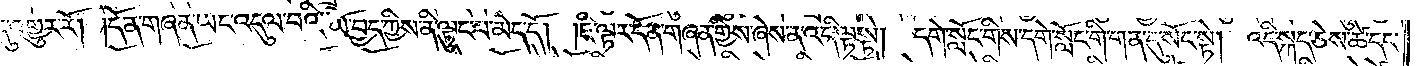དུ་འགྱུར་རོ། །དོན་གཞན་ཡང་འདུལ་བའི་ཡོ་བྱད་ཀྱིས་ནི་ལྟུང་བ་མེད་དོ། །ཇི་ལྟར་དོན་གཞན་གྱིས་ཞེས་ན་འདི་ལྟ་སྟེ། དགེ་སློང་གིས་དགེ་སློང་གི་གན་དུ་སོང་སྟེ། འདི་སྐད་ཅེས་ཚེ་དང་
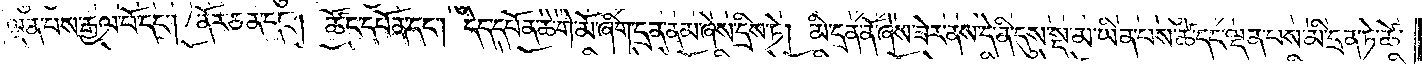ལྡན་པས་རྒྱལ་པོ་དང༌། ནོར་ཅན་དང༌། ཚོང་དཔོན་དང༌། དེད་དཔོན་ཆེ་གེ་མོ་ཞིག་དྲན་ནམ་ཞེས་དྲིས་ཏེ། མི་དྲན་ནོ་ཞེས་ཟེར་ནས་དེ་ནི་དུས་སྔ་མ་ཡིན་པས་ཚེ་དང་ལྡན་པས་མི་དྲན་ཏེ་ཚེ་
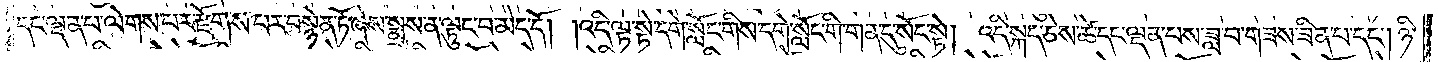དང་ལྡན་པ་ལེགས་པར་རྫོགས་པར་བསྙེན་ཏོ་ཞེས་སྨྲས་ན་ལྟུང་བ་མེད་དོ། །འདི་ལྟ་སྟེ་དགེ་སློང་གིས་དགེ་སློང་གི་གན་དུ་སོང་སྟེ། འདི་སྐད་ཅེས་ཚེ་དང་ལྡན་པས་ཟླ་བ་གཟས་ཟིན་པ་དང༌། ཉི་
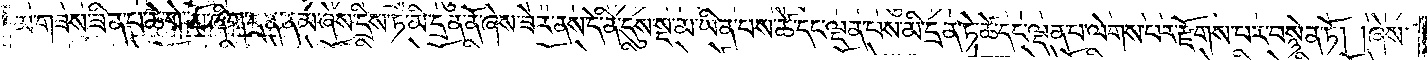མ་གཟས་ཟིན་པ་ཆེ་གེ་མོ་ཞིག་དྲན་ནམ་ཞེས་དྲིས་ཏེ་མི་དྲན་ནོ་ཞེས་ཟེར་ནས་དེ་ནི་དུས་སྔ་མ་ཡིན་པས་ཚེ་དང་ལྡན་པས་མི་དྲན་ཏེ་ཚེ་དང་ལྡན་པ་ལེགས་པར་རྫོགས་པར་བསྙེན་ཏོ། །ཞེས་
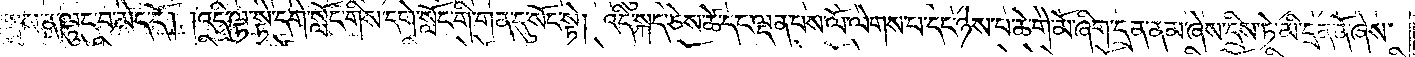སྨྲས་ན་ལྟུང་བ་མེད་དོ། །འདི་ལྟ་སྟེ་དགེ་སློང་གིས་དགེ་སློང་གི་གན་དུ་སོང་སྟེ། འདི་སྐད་ཅེས་ཚེ་དང་ལྡན་པས་ལོ་ལེགས་པ་དང་ཉེས་པ་ཆེ་གེ་མོ་ཞིག་དྲན་ནམ་ཞེས་དྲིས་ཏེ་མི་དྲན་ནོ་ཞེས་
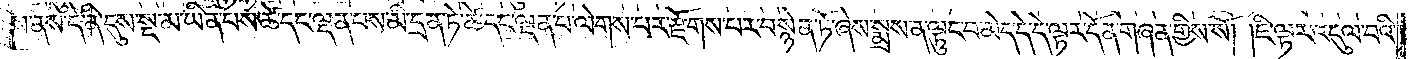སྨྲས་ནས་དེ་ནི་དུས་སྔ་མ་ཡིན་པས་ཚེ་དང་ལྡན་པས་མི་དྲན་ཏེ་ཚེ་དང་ལྡན་པ་ལེགས་པར་རྫོགས་པར་བསྙེན་ཏོ་ཞེས་སྨྲས་ན་ལྟུང་བ་མེད་དེ་དེ་ལྟར་དོན་གཞན་གྱིས་སོ། །ཇི་ལྟར་འདུལ་བའི་
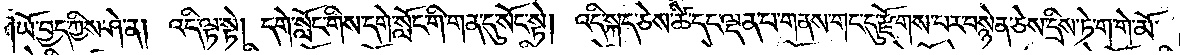ཡོ་བྱད་ཀྱིས་ཤེ་ན། འདི་ལྟ་སྟེ། དགེ་སློང་གིས་དགེ་སློང་གི་གན་དུ་སོང་སྟེ། འདི་སྐད་ཅེས་ཚེ་དང་ལྡན་པ་གནས་གང་དུ་རྫོགས་པར་བསྙེན་ཅེས་དྲིས་ཏེ་ག་གེ་མོ་
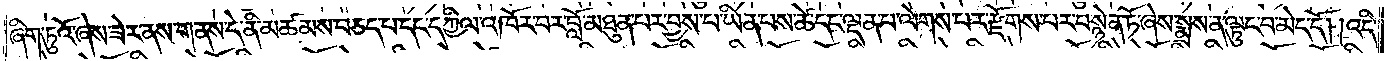ཞིག་ཏུའོ་ཞེས་ཟེར་ནས་གནས་དེ་ནི་མཚམས་བཅད་པ་དང་དཀྱིལ་འཁོར་བར་བློ་མཐུན་པར་བྱས་པ་ཡིན་པས་ཚེ་དང་ལྡན་པ་ལེགས་པར་རྫོགས་པར་བསྙེན་ཏོ་ཞེས་སྨྲས་ན་ལྟུང་བ་མེད་དོ། །འདི་
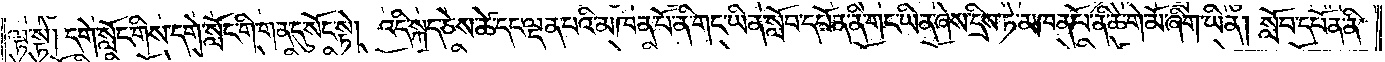ལྟ་སྟེ། དགེ་སློང་གིས་དགེ་སློང་གི་གན་དུ་སོང་སྟེ། འདི་སྐད་ཅེས་ཚེ་དང་ལྡན་པའི་མཁན་པོ་ནི་གང་ཡིན་སློབ་དཔོན་ནི་གང་ཡིན་ཞེས་དྲིས་ཏེ་མཁན་པོ་ནི་ཆེ་གེ་མོ་ཞིག་ཡིན། སློབ་དཔོན་ནི་
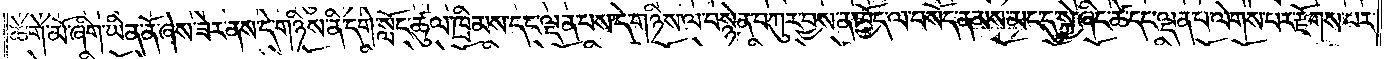ཆེ་གེ་མོ་ཞིག་ཡིན་ནོ་ཞེས་ཟེར་ནས་དེ་གཉིས་ནི་དགེ་སློང་ཚུལ་ཁྲིམས་དང་ལྡན་པས་དེ་གཉིས་ལ་བསྙེན་བཀུར་བྱས་ན་ཁྱོད་ལ་བསོད་ནམས་མང་དུ་སྐྱེ་ཞིང་ཚེ་དང་ལྡན་པ་ལེགས་པར་རྫོགས་པར་
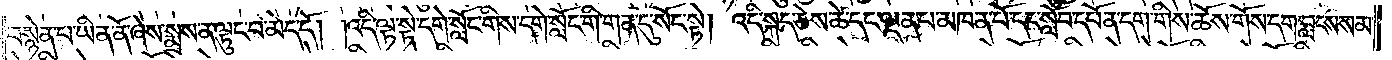བསྙེན་པ་ཡིན་ནོ་ཞེས་སྨྲས་ན་ལྟུང་བ་མེད་དོ། །འདི་ལྟ་སྟེ་དགེ་སློང་གིས་དགེ་སློང་གི་གན་དུ་སོང་སྟེ། འདི་སྐད་ཅེས་ཚེ་དང་ལྡན་པ་མཁན་པོ་དང་སློབ་དཔོན་དག་གིས་ཆོས་གོས་དག་བླངས་སམ་
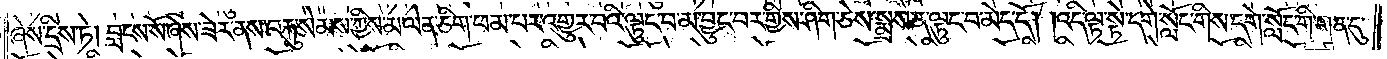ཞེས་དྲིས་ཏེ། བླངས་སོ་ཞེས་ཟེར་ནས་བརྐུ་སེམས་ཀྱིས་མ་ལེན་ཅིག་ཕམ་པར་འགྱུར་བའི་ལྟུང་བ་མ་བྱུང་བར་གྱིས་ཤིག་ཅེས་སྨྲས་ན་ལྟུང་བ་མེད་དོ། །འདི་ལྟ་སྟེ་དགེ་སློང་གིས་དགེ་སློང་གི་གན་དུ་
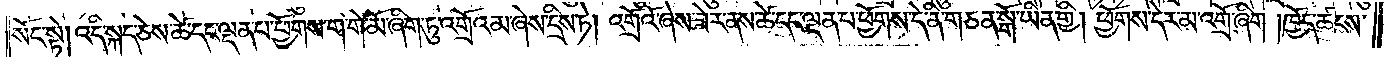སོང་སྟེ། འདི་སྐད་ཅེས་ཚེ་དང་ལྡན་པ་ཕྱོགས་ག་གེ་མོ་ཞིག་ཏུ་འགྲོའམ་ཞེས་དྲིས་ཏེ། འགྲོའོ་ཞེས་ཟེར་ནས་ཚེ་དང་ལྡན་པ་ཕྱོགས་དེ་ནི་གཅན་སྒོ་ཡིན་གྱི། ཕྱོགས་དེར་མ་འགྲོ་ཞིག །ཁྱོད་ཚངས་
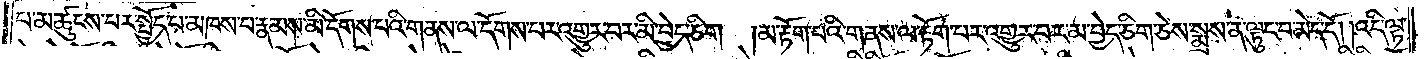པ་མཚུངས་པར་སྤྱོད་པ་མཁས་པ་རྣམས་མི་དོགས་པའི་གནས་ལ་དོགས་པར་འགྱུར་བར་མི་བྱེད་ཅིག །མ་རྟོག་པའི་གནས་ལ་རྟོག་པར་འགྱུར་བར་མ་བྱེད་ཅིག་ཅེས་སྨྲས་ན་ལྟུང་བ་མེད་དོ། །འདི་ལྟ་
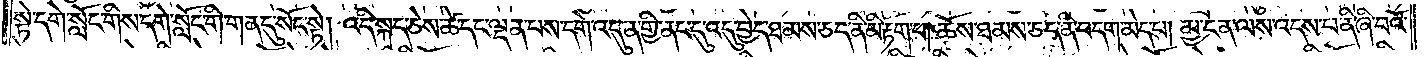སྟེ་དགེ་སློང་གིས་དགེ་སློང་གི་གན་དུ་སོང་སྟེ། འདི་སྐད་ཅེས་ཚེ་དང་ལྡན་པས་དགེ་འདུན་གྱི་ནང་དུ་འདུ་བྱེད་ཐམས་ཅད་ནི་མི་རྟག་པ། ཆོས་ཐམས་ཅད་ནི་བདག་མེད་པ། མྱ་ངན་ལས་འདས་པ་ནི་ཞི་བའོ་
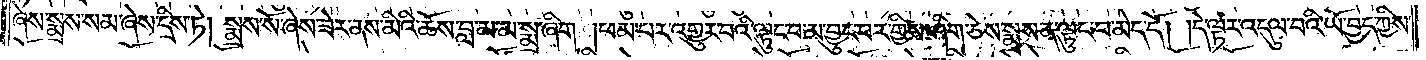ཞེས་སྨྲས་སམ་ཞེས་དྲིས་ཏེ། སྨྲས་སོ་ཞེས་ཟེར་ནས་མིའི་ཆོས་བླ་མ་མ་སྨྲ་ཞིག། ཕམ་པར་འགྱུར་བའི་ལྟུང་བ་མ་བྱུང་བར་གྱིས་ཤིག་ཅེས་སྨྲས་ན་ལྟུང་བ་མེད་དོ། །དེ་ལྟར་འདུལ་བའི་ཡོ་བྱད་ཀྱིས་
